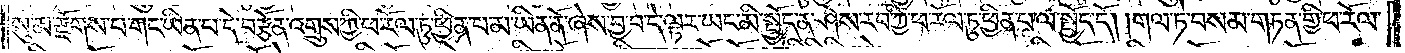སུ་མ་རྫོགས་པ་གང་ཡིན་པ་དེ་བརྩོན་འགྲུས་ཀྱི་ཕ་རོལ་ཏུ་ཕྱིན་པ་མ་ཡིན་ནོ་ཞེས་བྱ་བ་དེ་ལྟར་ཡང་མི་སྤྱོད་ན་ཤེས་རབ་ཀྱི་ཕ་རོལ་ཏུ་ཕྱིན་པ་ལ་སྤྱོད་དོ། །གལ་ཏེ་བསམ་གཏན་གྱི་ཕ་རོལ་
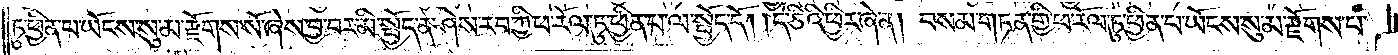ཏུ་ཕྱིན་པ་ཡོངས་སུ་མ་རྫོགས་སོ་ཞེས་བྱ་བར་མི་སྤྱོད་ན་ཤེས་རབ་ཀྱི་ཕ་རོལ་ཏུ་ཕྱིན་པ་ལ་སྤྱོད་དོ། །དེ་ཅིའི་ཕྱིར་ཞེ་ན། བསམ་གཏན་གྱི་ཕ་རོལ་ཏུ་ཕྱིན་པ་ཡོངས་སུ་མ་རྫོགས་པ་
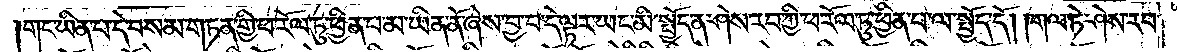གང་ཡིན་པ་དེ་བསམ་གཏན་གྱི་ཕ་རོལ་ཏུ་ཕྱིན་པ་མ་ཡིན་ནོ་ཞེས་བྱ་བ་དེ་ལྟར་ཡང་མི་སྤྱོད་ན་ཤེས་རབ་ཀྱི་ཕ་རོལ་ཏུ་ཕྱིན་པ་ལ་སྤྱོད་དོ། །གལ་ཏེ་ཤེས་རབ་
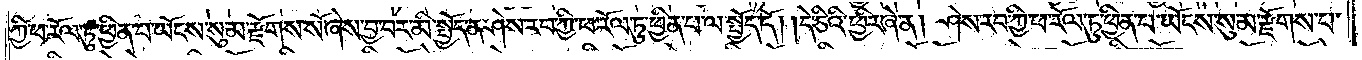ཀྱི་ཕ་རོལ་ཏུ་ཕྱིན་པ་ཡོངས་སུ་མ་རྫོགས་སོ་ཞེས་བྱ་བར་མི་སྤྱོད་ན་ཤེས་རབ་ཀྱི་ཕ་རོལ་ཏུ་ཕྱིན་པ་ལ་སྤྱོད་དོ། །དེ་ཅིའི་ཕྱིར་ཞེ་ན། ཤེས་རབ་ཀྱི་ཕ་རོལ་ཏུ་ཕྱིན་པ་ཡོངས་སུ་མ་རྫོགས་པ་
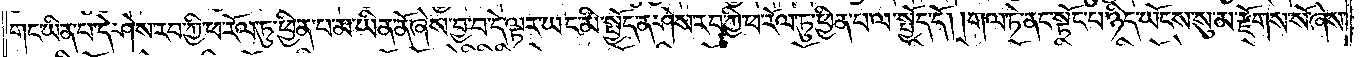གང་ཡིན་པ་དེ་ཤེས་རབ་ཀྱི་ཕ་རོལ་ཏུ་ཕྱིན་པ་མ་ཡིན་ནོ་ཞེས་བྱ་བ་དེ་ལྟར་ཡང་མི་སྤྱོད་ན་ཤེས་རབ་ཀྱི་ཕ་རོལ་ཏུ་ཕྱིན་པ་ལ་སྤྱོད་དོ། །གལ་ཏེ་ནང་སྟོང་པ་ཉིད་ཡོངས་སུ་མ་རྫོགས་སོ་ཞེས་
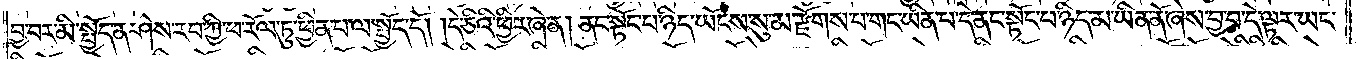བྱ་བར་མི་སྤྱོད་ན་ཤེས་རབ་ཀྱི་ཕ་རོལ་ཏུ་ཕྱིན་པ་ལ་སྤྱོད་དོ། །དེ་ཅིའི་ཕྱིར་ཞེ་ན། ནང་སྟོང་པ་ཉིད་ཡོངས་སུ་མ་རྫོགས་པ་གང་ཡིན་པ་དེ་ནང་སྟོང་པ་ཉིད་མ་ཡིན་ནོ་ཞེས་བྱ་བ་དེ་ལྟར་ཡང་
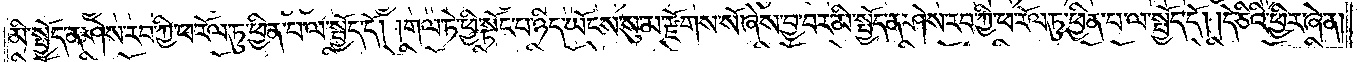མི་སྤྱོད་ན་ཤེས་རབ་ཀྱི་ཕ་རོལ་ཏུ་ཕྱིན་པ་ལ་སྤྱོད་དོ། །གལ་ཏེ་ཕྱི་སྟོང་པ་ཉིད་ཡོངས་སུ་མ་རྫོགས་སོ་ཞེས་བྱ་བར་མི་སྤྱོད་ན་ཤེས་རབ་ཀྱི་ཕ་རོལ་ཏུ་ཕྱིན་པ་ལ་སྤྱོད་དོ། །དེ་ཅིའི་ཕྱིར་ཞེ་ན།
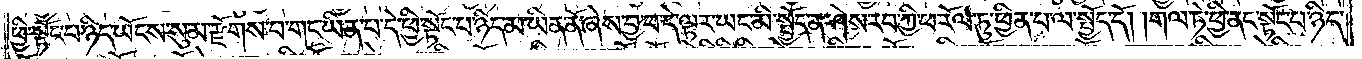ཕྱི་སྟོང་པ་ཉིད་ཡོངས་སུ་མ་རྫོགས་པ་གང་ཡིན་པ་དེ་ཕྱི་སྟོང་པ་ཉིད་མ་ཡིན་ནོ་ཞེས་བྱ་བ་དེ་ལྟར་ཡང་མི་སྤྱོད་ན་ཤེས་རབ་ཀྱི་ཕ་རོལ་ཏུ་ཕྱིན་པ་ལ་སྤྱོད་དོ། །གལ་ཏེ་ཕྱི་ནང་སྟོང་པ་ཉིད་
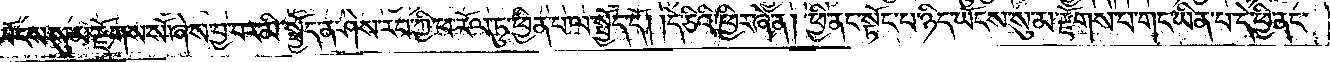ཡོངས་སུ་མ་རྫོགས་སོ་ཞེས་བྱ་བར་མི་སྤྱོད་ན་ཤེས་རབ་ཀྱི་ཕ་རོལ་ཏུ་ཕྱིན་པ་ལ་སྤྱོད་དོ། །དེ་ཅིའི་ཕྱིར་ཞེ་ན། ཕྱི་ནང་སྟོང་པ་ཉིད་ཡོངས་སུ་མ་རྫོགས་པ་གང་ཡིན་པ་དེ་ཕྱི་ནང་
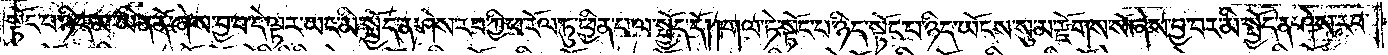སྟོང་པ་ཉིད་མ་ཡིན་ནོ་ཞེས་བྱ་བ་དེ་ལྟར་ཡང་མི་སྤྱོད་ན་ཤེས་རབ་ཀྱི་ཕ་རོལ་ཏུ་ཕྱིན་པ་ལ་སྤྱོད་དོ། །གལ་ཏེ་སྟོང་པ་ཉིད་སྟོང་པ་ཉིད་ཡོངས་སུ་མ་རྫོགས་སོ་ཞེས་བྱ་བར་མི་སྤྱོད་ན་ཤེས་རབ་
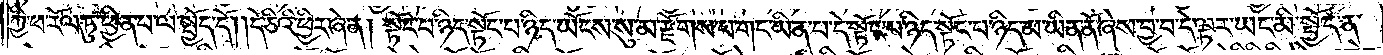ཀྱི་ཕ་རོལ་ཏུ་ཕྱིན་པ་ལ་སྤྱོད་དོ། །དེ་ཅིའི་ཕྱིར་ཞེ་ན། སྟོང་པ་ཉིད་སྟོང་པ་ཉིད་ཡོངས་སུ་མ་རྫོགས་པ་གང་ཡིན་པ་དེ་སྟོང་པ་ཉིད་སྟོང་པ་ཉིད་མ་ཡིན་ནོ་ཞེས་བྱ་བ་དེ་ལྟར་ཡང་མི་སྤྱོད་ན་
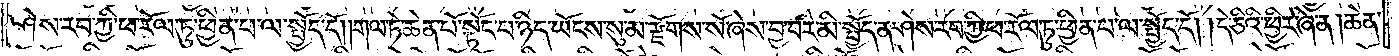ཤེས་རབ་ཀྱི་ཕ་རོལ་ཏུ་ཕྱིན་པ་ལ་སྤྱོད་དོ། །གལ་ཏེ་ཆེན་པོ་སྟོང་པ་ཉིད་ཡོངས་སུ་མ་རྫོགས་སོ་ཞེས་བྱ་བར་མི་སྤྱོད་ན་ཤེས་རབ་ཀྱི་ཕ་རོལ་ཏུ་ཕྱིན་པ་ལ་སྤྱོད་དོ། །དེ་ཅིའི་ཕྱིར་ཞེ་ན། ཆེན་
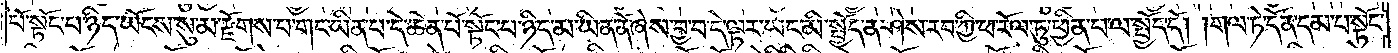པོ་སྟོང་པ་ཉིད་ཡོངས་སུ་མ་རྫོགས་པ་གང་ཡིན་པ་དེ་ཆེན་པོ་སྟོང་པ་ཉིད་མ་ཡིན་ནོ་ཞེས་བྱ་བ་དེ་ལྟར་ཡང་མི་སྤྱོད་ན་ཤེས་རབ་ཀྱི་ཕ་རོལ་ཏུ་ཕྱིན་པ་ལ་སྤྱོད་དོ། །གལ་ཏེ་དོན་དམ་པ་སྟོང་
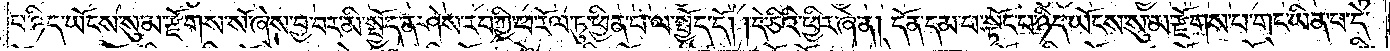པ་ཉིད་ཡོངས་སུ་མ་རྫོགས་སོ་ཞེས་བྱ་བར་མི་སྤྱོད་ན་ཤེས་རབ་ཀྱི་ཕ་རོལ་ཏུ་ཕྱིན་པ་ལ་སྤྱོད་དོ། །དེ་ཅིའི་ཕྱིར་ཞེ་ན། དོན་དམ་པ་སྟོང་པ་ཉིད་ཡོངས་སུ་མ་རྫོགས་པ་གང་ཡིན་པ་དེ་
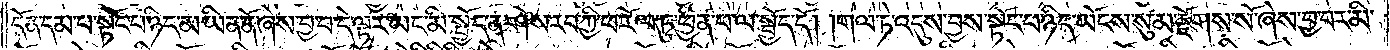དོན་དམ་པ་སྟོང་པ་ཉིད་མ་ཡིན་ནོ་ཞེས་བྱ་བ་དེ་ལྟར་ཡང་མི་སྤྱོད་ན་ཤེས་རབ་ཀྱི་ཕ་རོལ་ཏུ་ཕྱིན་པ་ལ་སྤྱོད་དོ། །གལ་ཏེ་འདུས་བྱས་སྟོང་པ་ཉིད་ཡོངས་སུ་མ་རྫོགས་སོ་ཞེས་བྱ་བར་མི་
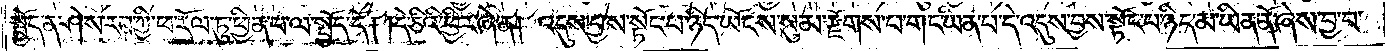སྤྱོད་ན་ཤེས་རབ་ཀྱི་ཕ་རོལ་ཏུ་ཕྱིན་པ་ལ་སྤྱོད་དོ། །དེ་ཅིའི་ཕྱིར་ཞེ་ན། འདུས་བྱས་སྟོང་པ་ཉིད་ཡོངས་སུ་མ་རྫོགས་པ་གང་ཡིན་པ་དེ་འདུས་བྱས་སྟོང་པ་ཉིད་མ་ཡིན་ནོ་ཞེས་བྱ་བ་
